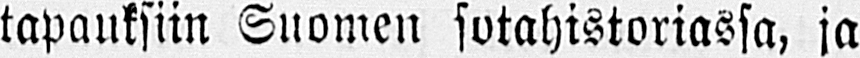tapauksiin Suomen sotahistoriassa, ja
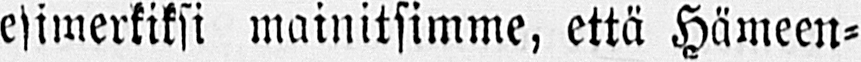esimerkiksi mainitsimme, että Hämeen-
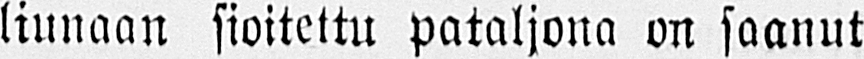linnaan sioitettu pataljona on saanut
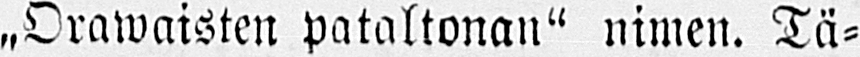„Orawaisten pataltonan" nimen. Tä-
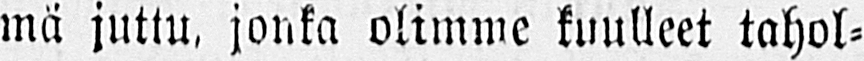mä juttu, jonka olimme kuulleet tahol-
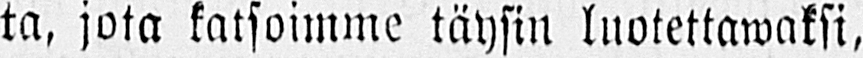ta, jota katsoimme täysin luotettawaksi,
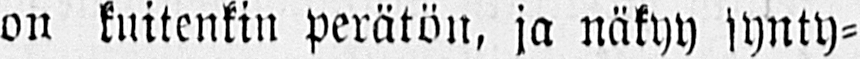on kuitenkin perätön, ja näkyy synty-
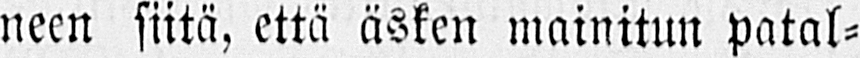neen siitä, että äsken mainitun patal-
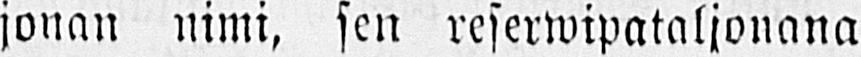jonan nimi, sen reserwipataljonana
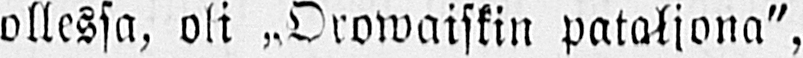ollessa, oli ˶Orowaiskin pataljona",
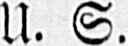U. S.
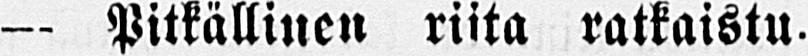— Pitkällinen riita ratkaistu.
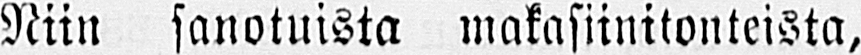Niin sanotuista makasiinitonteista,
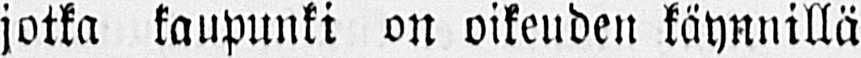jotka kaupunki on oikeuden käynnillä
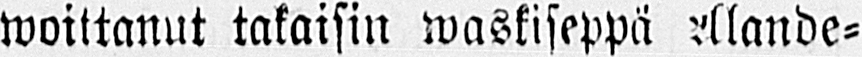woittanut takaisin waskiseppä Alande-
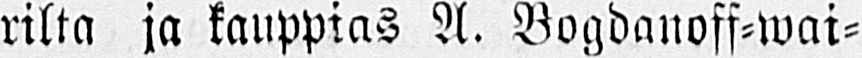rilta ja kauppias A. Bogdanoff-wai-
